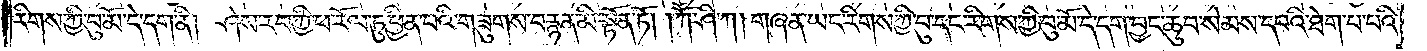རིགས་ཀྱི་བུ་མོ་དེ་དག་ནི། ཤེས་རབ་ཀྱི་ཕ་རོལ་ཏུ་ཕྱིན་པའི་གཟུགས་བརྙན་མི་སྟོན་ཏོ། །ཀཽ་ཤི་ཀ། གཞན་ཡང་རིགས་ཀྱི་བུ་དང་རིགས་ཀྱི་བུ་མོ་དེ་དག་བྱང་ཆུབ་སེམས་དཔའི་ཐེག་པ་པའི་
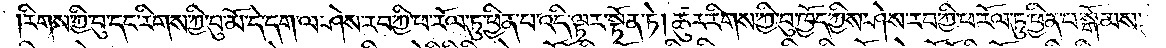རིགས་ཀྱི་བུ་དང་རིགས་ཀྱི་བུ་མོ་དེ་དག་ལ་ཤེས་རབ་ཀྱི་ཕ་རོལ་ཏུ་ཕྱིན་པ་འདི་ལྟར་སྟོན་ཏེ། ཚུར་རིགས་ཀྱི་བུ་ཁྱོད་ཀྱིས་ཤེས་རབ་ཀྱི་ཕ་རོལ་ཏུ་ཕྱིན་པ་སྒོམས་
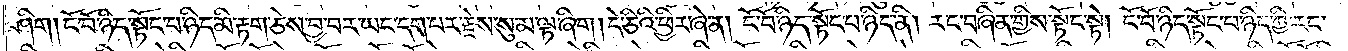ཤིག །ངོ་བོ་ཉིད་སྟོང་པ་ཉིད་མི་རྟག་ཅེས་བྱ་བར་ཡང་དག་པར་རྗེས་སུ་མ་ལྟ་ཞིག །དེ་ཅིའི་ཕྱིར་ཞེ་ན། ངོ་བོ་ཉིད་སྟོང་པ་ཉིད་ནི། རང་བཞིན་གྱིས་སྟོང་སྟེ། ངོ་བོ་ཉིད་སྟོང་པ་ཉིད་ཀྱི་རང་
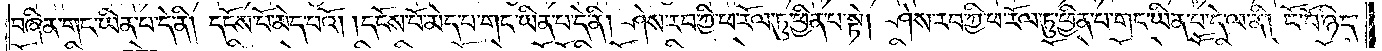བཞིན་གང་ཡིན་པ་དེ་ནི། དངོས་པོ་མེད་པའོ། །དངོས་པོ་མེད་པ་གང་ཡིན་པ་དེ་ནི། ཤེས་རབ་ཀྱི་ཕ་རོལ་ཏུ་ཕྱིན་པ་སྟེ། ཤེས་རབ་ཀྱི་ཕ་རོལ་ཏུ་ཕྱིན་པ་གང་ཡིན་པ་དེ་ལ་ནི། ངོ་བོ་ཉིད་
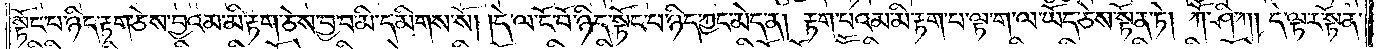སྟོང་པ་ཉིད་རྟག་ཅེས་བྱ་བའམ་མི་རྟག་ཅེས་བྱ་བ་མི་དམིགས་སོ། །དེ་ལ་ངོ་བོ་ཉིད་སྟོང་པ་ཉིད་ཀྱང་མེད་ན། རྟག་པའམ་མི་རྟག་པ་ལྟ་ག་ལ་ཡོད་ཅེས་སྟོན་ཏེ། ཀཽ་ཤི་ཀ། དེ་ལྟར་སྟོན་
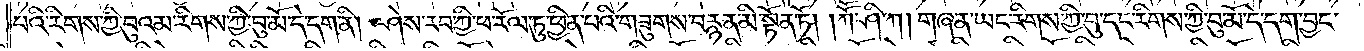པའི་རིགས་ཀྱི་བུའམ་རིགས་ཀྱི་བུ་མོ་དེ་དག་ནི། ཤེས་རབ་ཀྱི་ཕ་རོལ་ཏུ་ཕྱིན་པའི་གཟུགས་བརྙན་མི་སྟོན་ཏོ། །ཀཽ་ཤི་ཀ། གཞན་ཡང་རིགས་ཀྱི་བུ་དང་རིགས་ཀྱི་བུ་མོ་དེ་དག་བྱང་
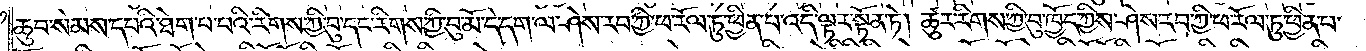ཆུབ་སེམས་དཔའི་ཐེག་པ་བའི་རིགས་ཀྱི་བུ་དང་རིགས་ཀྱི་བུ་མོ་དེ་དག་ལ་ཤེས་རབ་ཀྱི་ཕ་རོལ་ཏུ་ཕྱིན་པ་འདི་ལྟར་སྟོན་ཏེ། ཚུར་རིགས་ཀྱི་བུ་ཁྱོད་ཀྱིས་ཤེས་རབ་ཀྱི་ཕ་རོལ་ཏུ་ཕྱིན་པ་
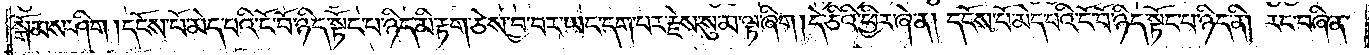སྒོམས་ཤིག །དངོས་པོ་མེད་པའི་ངོ་བོ་ཉིད་སྟོང་པ་ཉིད་མི་རྟག་ཅེས་བྱ་བར་ཡང་དག་པར་རྗེས་སུ་མ་ལྟ་ཞིག །དེ་ཅིའི་ཕྱིར་ཞེ་ན། དངོས་པོ་མེད་པའི་ངོ་བོ་ཉིད་སྟོང་པ་ཉིད་ནི། རང་བཞིན་
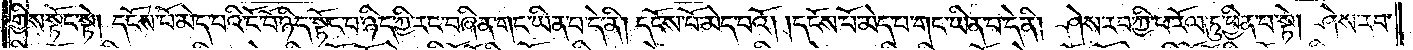གྱིས་སྟོང་སྟེ། དངོས་པོ་མེད་པའི་ངོ་བོ་ཉིད་སྟོང་པ་ཉིད་ཀྱི་རང་བཞིན་གང་ཡིན་པ་དེ་ནི། དངོས་པོ་མེད་པའོ། །དངོས་པོ་མེད་པ་གང་ཡིན་པ་དེ་ནི། ཤེས་རབ་ཀྱི་ཕ་རོལ་ཏུ་ཕྱིན་པ་སྟེ། ཤེས་རབ་
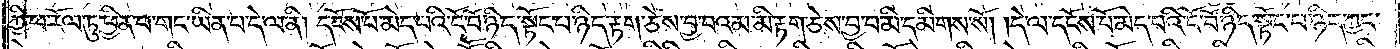ཀྱི་ཕ་རོལ་ཏུ་ཕྱིན་པ་གང་ཡིན་པ་དེ་ལ་ནི། དངོས་པོ་མེད་པའི་ངོ་བོ་ཉིད་སྟོང་པ་ཉིད་རྟག་ཅེས་བྱ་བའམ་མི་རྟག་ཅེས་བྱ་བ་མི་དམིགས་སོ། །དེ་ལ་དངོས་པོ་མེད་པའི་ངོ་བོ་ཉིད་སྟོང་པ་ཉིད་ཀྱང་
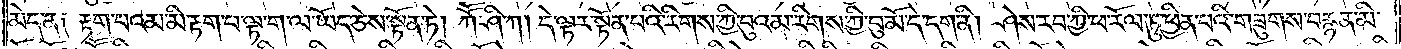མེད་ན༑ རྟག་པའམ་མི་རྟག་པ་ལྟ་ག་ལ་ཡོད་ཅེས་སྟོན་ཏེ། ཀཽ་ཤི་ཀ །དེ་ལྟར་སྟོན་པའི་རིགས་ཀྱི་བུའམ་རིགས་ཀྱི་བུ་མོ་དེ་དག་ནི། ཤེས་རབ་ཀྱི་ཕ་རོལ་ཏུ་ཕྱིན་པའི་གཟུགས་བརྙན་མི་
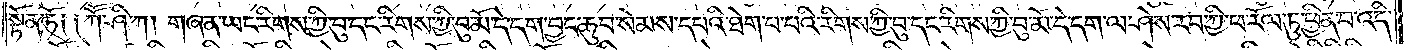སྟོན་ཏོ༑ ༑ཀཽ་ཤི་ཀ། གཞན་ཡང་རིགས་ཀྱི་བུ་དང་རིགས་ཀྱི་བུ་མོ་དེ་དག་བྱང་ཆུབ་སེམས་དཔའི་ཐེག་པ་པའི་རིགས་ཀྱི་བུ་དང་རིགས་ཀྱི་བུ་མོ་དེ་དག་ལ་ཤེས་རབ་ཀྱི་ཕ་རོལ་ཏུ་ཕྱིན་པ་འདི་
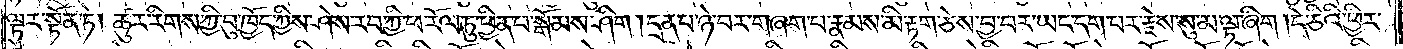ལྟར་སྟོན་ཏེ། ཚུར་རིགས་ཀྱི་བུ་ཁྱོད་ཀྱིས་ཤེས་རབ་ཀྱི་ཕ་རོལ་ཏུ་ཕྱིན་པ་སྒོམས་ཤིག །དྲན་པ་ཉེ་བར་གཞག་པ་རྣམས་མི་རྟག་ཅེས་བྱ་བར་ཡང་དག་པར་རྗེས་སུ་མ་ལྟ་ཞིག །དེ་ཅིའི་ཕྱིར་
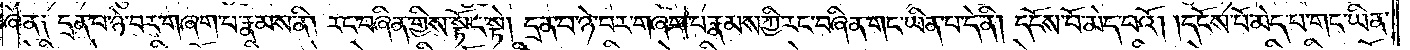ཞེ་ན༑ དྲན་པ་ཉེ་བར་གཞག་པ་རྣམས་ནི། རང་བཞིན་གྱིས་སྟོང་སྟེ། དྲན་པ་ཉེ་བར་གཞག་པ་རྣམས་ཀྱི་རང་བཞིན་གང་ཡིན་པ་དེ་ནི། དངོས་པོ་མེད་པའོ། །དངོས་པོ་མེད་པ་གང་ཡིན་
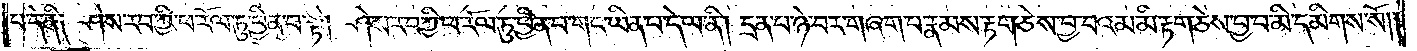པ་དེ་ནི༑ ཤེས་རབ་ཀྱི་ཕ་རོལ་ཏུ་ཕྱིན་པ་སྟེ། ཤེས་རབ་ཀྱི་ཕ་རོལ་ཏུ་ཕྱིན་པ་གང་ཡིན་པ་དེ་ལ་ནི། དྲན་པ་ཉེ་བར་གཞག་པ་རྣམས་རྟག་ཅེས་བྱ་བའམ་མི་རྟག་ཅེས་བྱ་བ་མི་དམིགས་སོ། །
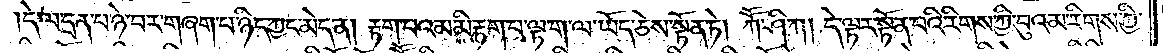དེ་ལ་དྲན་པ་ཉེ་བར་གཞག་པ་ཉིད་ཀྱང་མེད་ན། རྟག་པའམ་མི་རྟག་པ་ལྟ་ག་ལ་ཡོད་ཅེས་སྟོན་ཏེ། ཀཽ་ཤི་ཀ། དེ་ལྟར་སྟོན་པའི་རིགས་ཀྱི་བུའམ་རིགས་ཀྱི་
